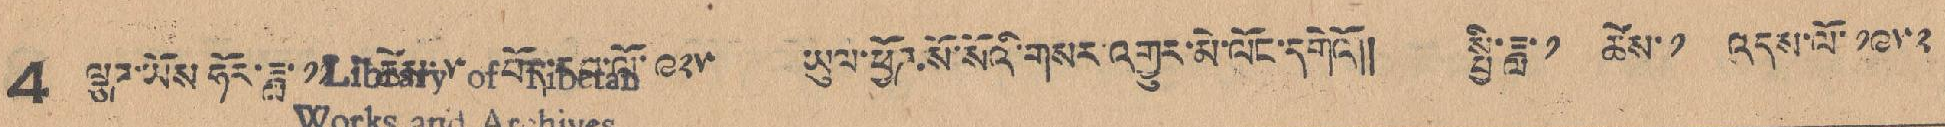4 ལྕཊ་ཡོས་ཧོར་ཟླ་ ༡༡ ཚེས་ ༥ བོད་རབ་ལོ་ ༩༢༥ ཡུལ་ཕྱོཊ སོ་སོའི་གསར་འགྱུར་མེ་ལོང་དགེའོ།། སྤྱི་ཟླ་༡ ཚེས་༡ འདས་ལོ་ ༡༩༥༢
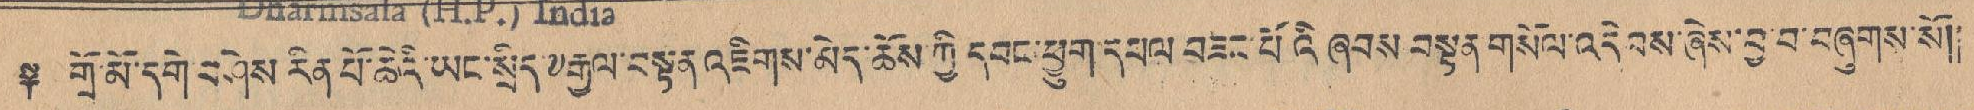༈ གྲོ་མོ་དགེ་བཤེས་རིན་པོ་ཆེའི་ཡང་སྲིད་༸རྒྱལ་བསྟན་འཇིགས་མེད་ཆོས་ཀྱི་དབང་ཕྱུག་དཔལ་བཟང་པོའི་ཞབས་བསྟན་གསོལ་འདེབས་ཞེས་བྱ་བ་བཞུགས་སོ།།
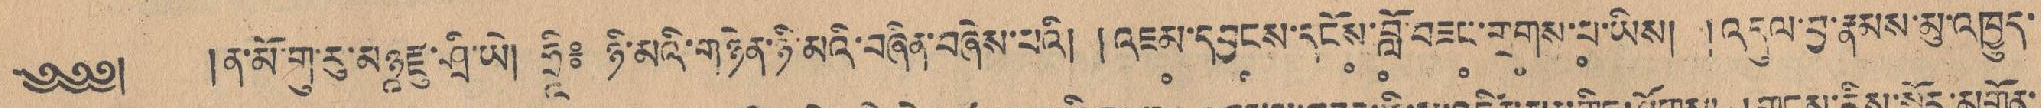༄༅༅། །ན་མོ་གུ་རུ་མཉཱརྫུ་ཤྲི་ཡེ། ཧྲཱི༔ ཉི་མའི་གཉེན་ཉི་མའི་བཞིན་བཞེས་པའི། །འཇ༷མ་དབྱ༷ངས་དངོ༷ས་བློ༷་བཟ༷ང་གྲ༷གས་པ༷་ཡིས། །འདུལ་བྱ་རྣམས་མུ་འཁྱུད་
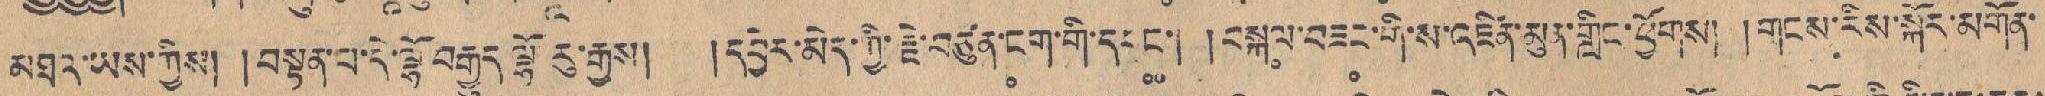མཐའ་ཡས་ཀྱིས། །བསྟན་པ་དེ་ལྷོ་བརྒྱུད་ལྷོ་རུ་རྒྱས། །དབྱེར་མེད་ཀྱི་རྗེ་བཙུན་ང༷ག་གི་དབ༷ང་། །བསྐ༷ལ་བཟ༷ང་གི་ས་འཛིན་མུན་གླིང་ཕྱོགས། །གངས་རིས་སྐོར་མགོན་
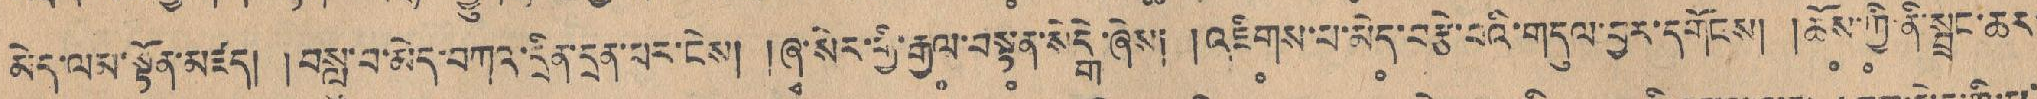མེད་ལམ་སྟོན་མཛད། །བསླུ་བ་མེད་བཀའ་དྲིན་དྲན་པར་ངེས། །ཞྭ་སེར་གྱི་རྒྱ༷ལ་བསྟ༷ན་སེངྒེ་ཞེས། །འཇི༷གས་པ་མེ༷ད་བརྩེ་པའི་གདུལ་བྱར་དགོངས། །ཆོ༷ས་ཀྱི༷་ནི་སྤྲང་ཆར་
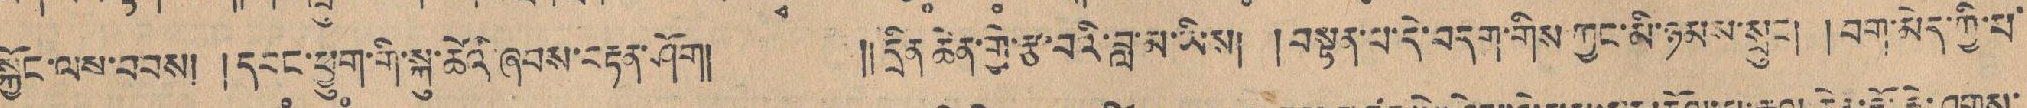སྐྱོང་ལས་བབས། །དབ༷ང་ཕྱུ༷ག་གི་སྐུ་ཆེའི་ཞབས་བརྟན་ཤོག། །།དྲིན་ཆེན་གྱི་རྩ་བའི་བླ་མ་ཡིས། །བསྟན་པ་དེ་བདག་གིས ཀྱང་མི་ཉམས་སྲུང། །བག་མེད་ཀྱི་པ་
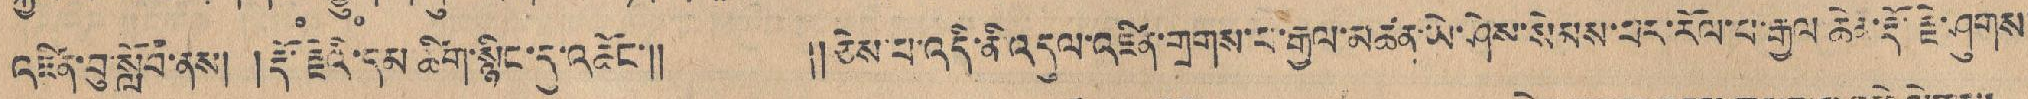འཛིན་བུ་སློབ་ནས། །རྡོ་རྗེའི་དམ་ཚིག་སྙིང་དུ་འཆོང་།། །།ཅེས་པ་འདི་ནི་འདུལ་འཛིན་གྲགས་པ་རྒྱལ་མཚན་ཡེ་ཤེས་སེམས་པར་རོལ་པ་རྒྱལ་ཆེན་རྡོ་རྗེ་ཤུགས་
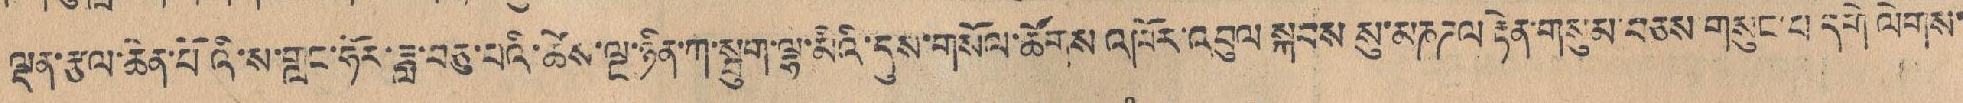ལྡན་རྩལ་ཆེན་པོའི་ས་གླང་ཧོར་ཟླ་བཅུ་པའི་ཚེས་ལྔ་ཉིན་ཀ་སྦུག་ལྷ་མིའི་དུས་གསོལ་ཚོགས་འཁོར་འབུལ སྐབས་སུ་བཎཌལ རྟེན་གསུམ་བཅས་གསུང་པ དགེ ལེགས་
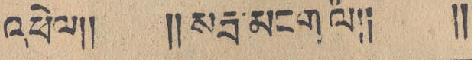འཕེལ།། །།སརྦ་མངགལཾ།། །།
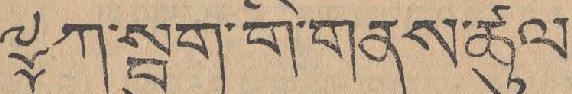༈ ཀ་སྦུག་གི་གནས་ཚུལ།
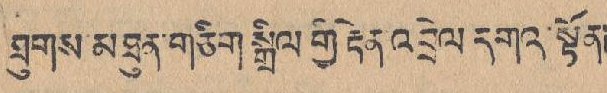ཐུགས་མཐུན་གཅིག སྒྲིལ གྱི་རྟེན་འབྲེལ དགའ་སྟོན།
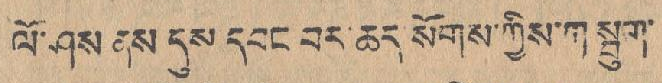ལོ་ཤས ནས དུས དབང བར་ཆད སོགས་ཀྱིས་ཀ སྦུག་
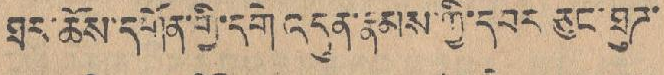ཐར་ཆོས་དགོན་གྱི་དགེ་འདུན་རྣམས་ཀྱི་དབར ཅུར་ཐུཊ་
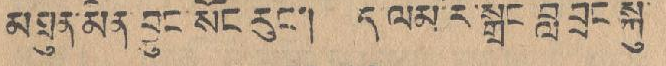མཐུན་མེད བྱུང་སོང་ རུང་། ད་ལམ་ར་སྒྲེང་བླ་བྲང སྐུ་
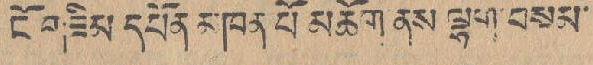ངོ་གཟིམ དཔོན་མཁན པོ མཆོག་ནས ལྷག་བསམ་
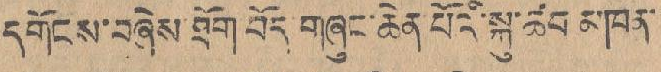དགོངས་བཞེས ཐོག་བོད གཞུང་ཆེན པོའི་སྐུ་ཚབ མཁན་
